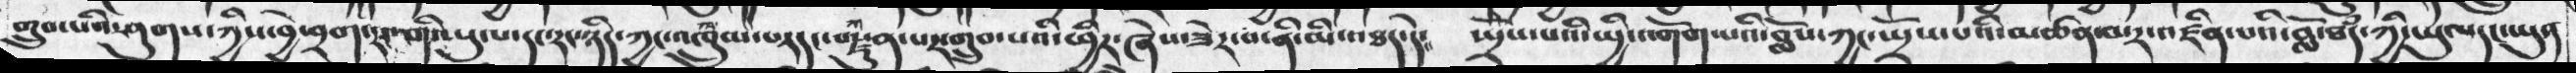གྲུབ་པའི་ཤུགས་ཀྱིས་བྱེ་བྲག་རང་གི་ཡུལ་དང་རང་ཉིད་ཀྱང་འཁྲུལ་པར་དང་བརྫུན་པར་གྲུབ་པའི་ཕྱིར་ཞེས་ཟེར་བ་ནི་མི་འཐད་དེ༴    སྤྲོས་པའི་སྤྱི་འགོག་པའི་བློས་ཀྱང་སྤྲོས་པའི་མཚན་མར་འཛིན་པའི་བློ་ཐཾད་ཀྱི་ཡུལ་དང་ཡུན
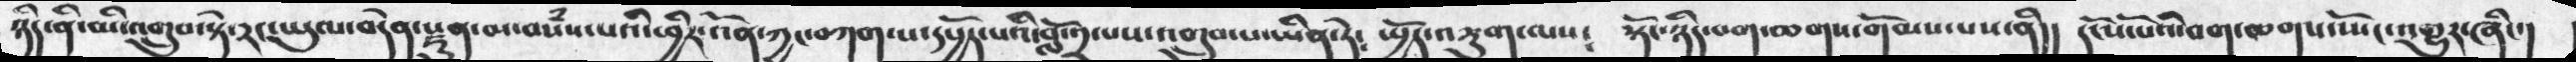ཉིད་ནི་མི་འགྲུབ་སྟེ་རང་ཡུལ་བདེན་རྫུན་མ་བསཾས་པའི་ཕྱིར་འོན་ཀྱང་བཀག་པ་དཔྱོད་པའི་བློ་༡་པས་འགྲུབ་པ་ཡིན་ཏེ༴ སྤྱོད་འཇུག་ལས༴  སྟོང་ཉིད་བག་ཆགས་གོམས་པས་ནི།།  དངོས་པོའི་བག་ཆགས་སྤོང་འགྱུར་ཞིང་།
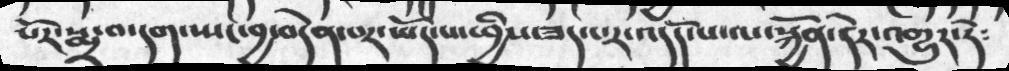པོར་སྨྲ་བ་དག་སྤང་བྱ་བདེན་པར་ཡོད་པ་ཕྱིས་ཟད་པར་འདོད་པ་ལ་སྐྱོན་དེར་འགྱུར་དེ༴
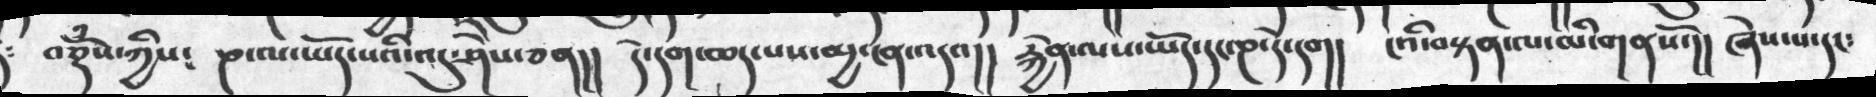།   བཅྡོཾས་ཀྱིས༴  ཎ་ལ་ཡོད་འདུ་ཤེས་ཅན།།  དེ་དག་ཆད་པས་མྱ་ངན་འདའ།།  རྐྱེན་ལས་ཡོད་ཎ་དེ་དག།  ངའི་བསྟན་ལ་མི་གནསོ་།།  ཞེས་པ་དང་
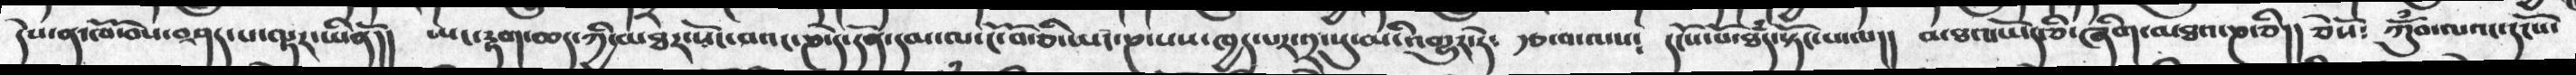དེས་ན་ཁོ་བོ་བཤད་པ་ལྟར་ཡིནོ།།  ཡང་རྟགས་ཆད་ཀྱི་མཐར་པོང་བའང་ཎ་དེ་དོན་དམ་ལ་ངོ་བོ་ཅི་ཡང་ཎ་པས་ཁྱད་པར་༢་སུ་མི་འགྱུར་དེ༴  རྩ་བ་ལས༴  དངོས་པོ་ཐཾད་སྟོང་པ་ལ།།  མཐའ་ཡོད་ཅི་ཞིག་མཐར་ཎ་ཅི།།   ཅེསོ༴  ཀོུཾབ་ལའང་དངོས་
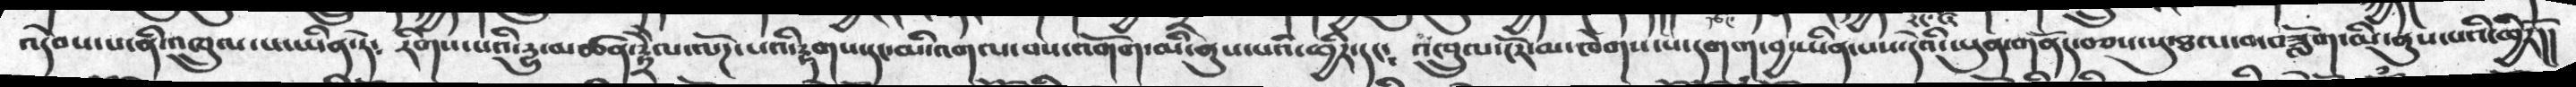འདེབས་པ་ནི་འཁྲུལ་པ་ཡིན་ཏེ༴   རིགས་པའི་དྱུ་མཚན་རྟྲེེལ་ལོཌ་པའི་རྟགས་དང་མི་འགལ་བས་འགོག་མི་ནུས་པའི་ཕྱིར་དང༴  འཁྲུལ་ངོར་མ་ཁེགས་པ་དགག་བྱ་ཡིན་པས་དེའི་ཡུན་གནོད་བཅས་སུ་ཐལ་བ་བཟློག་མི་ནུས་པའི་ཕྱིརོ།།
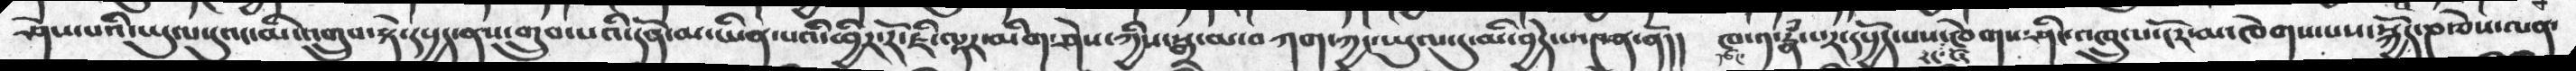ཤེས་པའི་ཡུལ་དུའང་མི་འགྲུབ་སྟེ་དཔྱད་ནས་གྲུབ་པའི་དོན་མ་ཡིན་པའི་ཕྱིར་རོ་ཇི་ལྟར་མིག་ཤེས་ཀྱིས་སྒྲ་མ་བཀག་ཀྱང་ཡུལ་དུ་མི་བྱེད་པ་༤ན་ནོ།།  ཁ་༡་རྣཾ་པར་དཔྱོད་པས་རང་ངོར་ཁེགས་ཤིང་འཁྲུལ་ངོར་མ་ཁེགསཔས་སྐྱོད་ཎ་ཅེས་ལན་
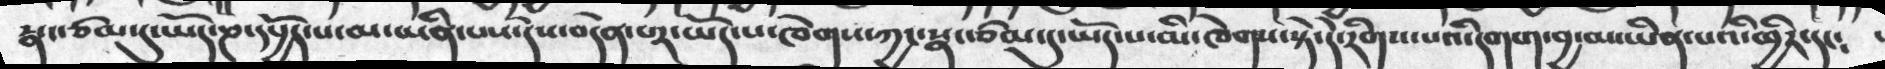སྣང་ཙམ་དུ་ཡོད་ཎ་དཔྱོད་པ་མ་ཡིན་པས་དེས་བདེན་༢་ཡོད་པ་ཁེགས་ཀྱང་སྣད་ཙམ་དུ་ཡོད་པ་མི་ཁེགས་སྟེ་དེ་རིགས་པའི་དགག་བྱ་མ་ཡིན་པའི་ཕྱིར་དང༴
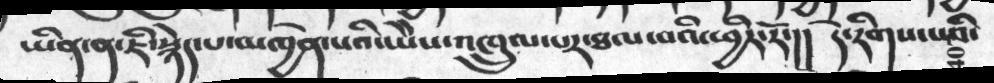ཡིན་ན་ཇི་སྙེད་པ་མཁྱེན་པའི་ཡེེས་འཁྲུལ་པར་ཐལ་བའི་ཕྱིར་རོ་།།  དེ་རིགས་པའི་
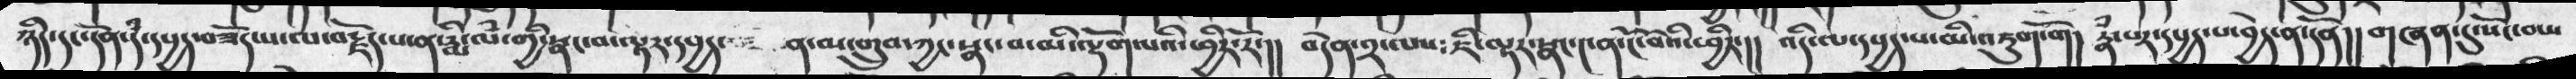ཉིད་དང་དོན་དཾ་དཔྱད་བཟོད་པ་ལ་བརྗོད་པ་ན་རྨི་ལཾ་གྱི་སྣང་བ་ལྟར་དཔྱད་  ན་མ་གྲུབ་ཀྱང་སྣང་བ་མི་ལྡོག་པའི་ཕྱིར་རོ་།།   བདེན་༢་ལས༴  ཇི་ལྟར་སྣང་༤ན་ངོ་བོའི་ཕྱིར་།།   འདི་ལ་དཔྱད་པ་མི་འཇུག་གོ།   རྣཾ་པར་དཔྱད་པ་བྱེད་ན་དོན།།  གཞན་དུ་སོང་བས་
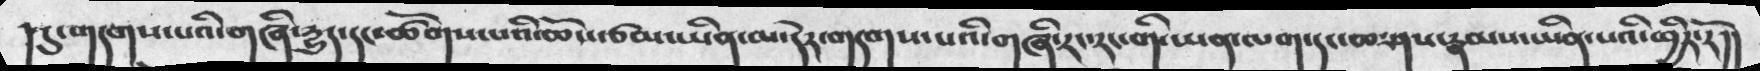།དུ་གདགས་པའི་གཞི་རྱུད་དང་ཚོགས་པའི་ཆོས་ཙམ་ཡིན་ལ་དེར་གདགས་པའི་གཞི་རང་རང་གི་ཡན་ལག་དང་ཆ་ཤས་རྣམས་ཡིན་པའི་ཕྱིར་རོ།།
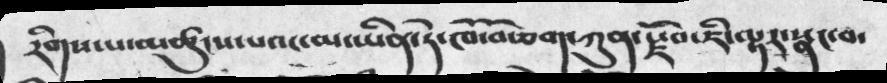རིགས་པ་མཚུངས་པའང་མ་ཡིན་ཏེ་ཁོ་བོ་ཅག་ཀུན་རྫོབ་ཇི་ལྟར་སྣང་བ་
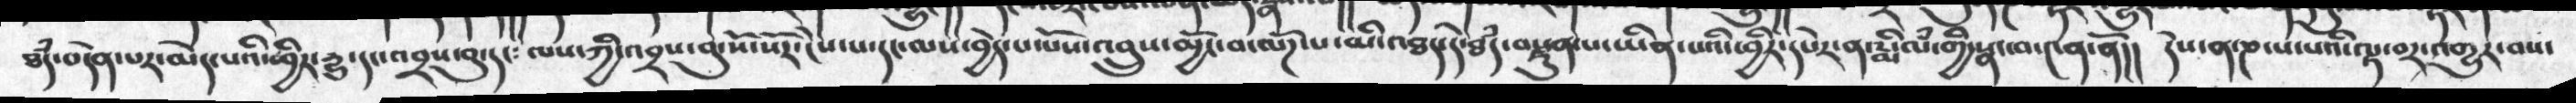ཐཾད་བདེན་པར་མེད་པའི་ཕྱིར་དྱུ་དང་འབྲས་བུ་དང༴   ལས་ཀྱི་འབྲས་བུ་སོ་སོར་ངེས་པ་དང་ལས་བྱེད་པ་པོས་འབྲུས་མྱོང་བ་ལོཌ་པ་མི་འཐད་དེ་ཐཾད་བརྫུན་པ་ཡིན་པའི་ཕྱིར་དཔེར་ན་རྨི་ལཾ་གྱི་སྣང་བ་༤ན་ནོ།།   དེ་ན་ཎ་པ་པའི་ལྟ་བར་འགྱུར་བས་
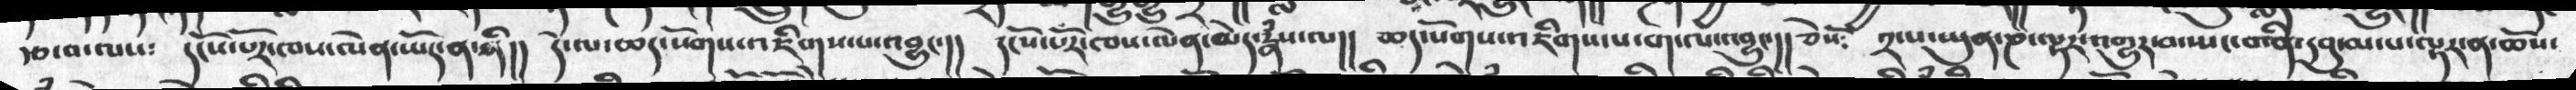རྩ་བ་ལས༴   དངོས་པོར་ཁས་ལེན་ཡོད་ན་ནི།།  དེ་ལ་ཆད་སོགས་འཇིགས་པ་འབྱུང་།།  དངོས་པར་ཁས་ལེན་མེད་རྣཾས་ལ།།   ཆད་སོགས་འཇིགས་པ་ག་ལ་འབྱུང་།། ཅེསོ༴  ༢་པ་སྤུན་ཎ་ལྟར་འགྱུར་བ་སྤང་བ་ནི་དབུ་མ་པ་ལྟར་ན་ཆོས་
